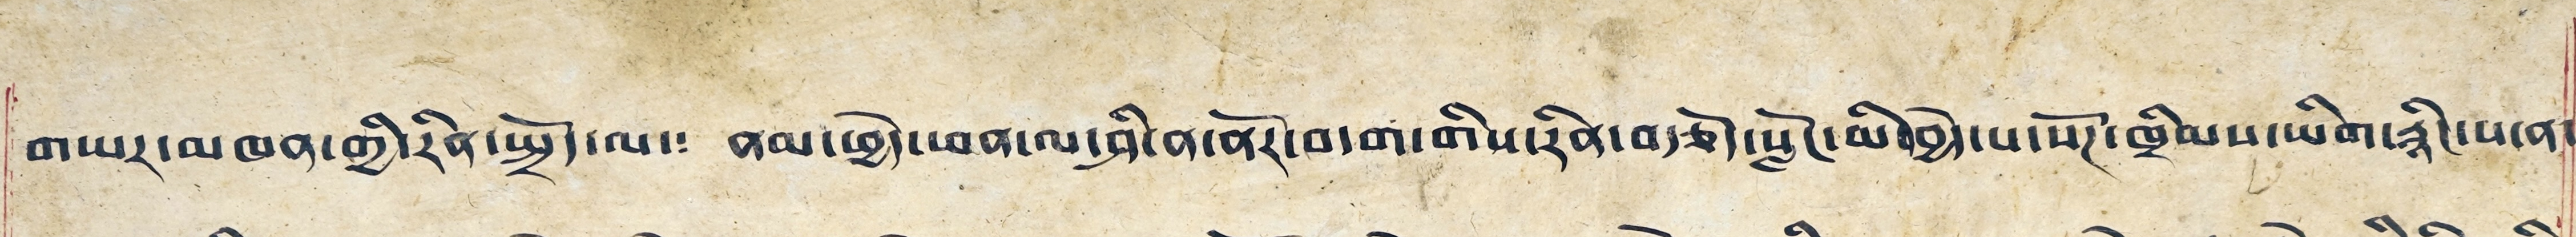གཡར་མཁན་གྱི་རིན་སྤྲོད་ལ་༴ ནམ་ཕྱེད་ཕན་ལ་ཤི་ན་ནོར་བདག་གིས་རིན་བརྩོད་སློང་མི་བྱེད་པ་སོཊ་ཁྲིམས་ཡིག་རྙིང་པ་ན་
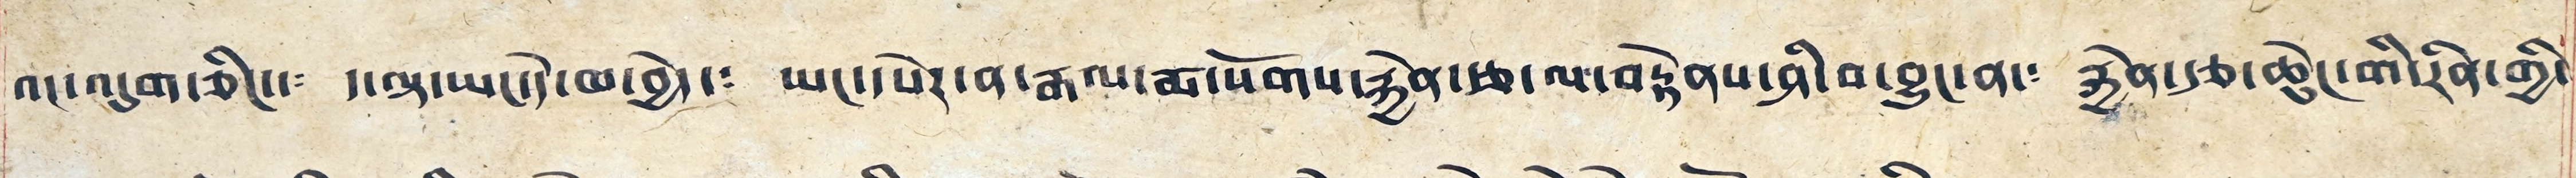འང་འདུག་ཅིང་༴ ད་ལྟ་ཡང་དེ་ཁ་བྱེད་༴ ཡང་དཔེར་ན་རྒལ་རྨ་སོགས་རྐྱེན་རྩ་ལ་བརྟེནས་ཤི་བ་བྱུང་ན་༴ རྐྱེན་རྩ་ཆེུང་གི་རིན་གྱི་
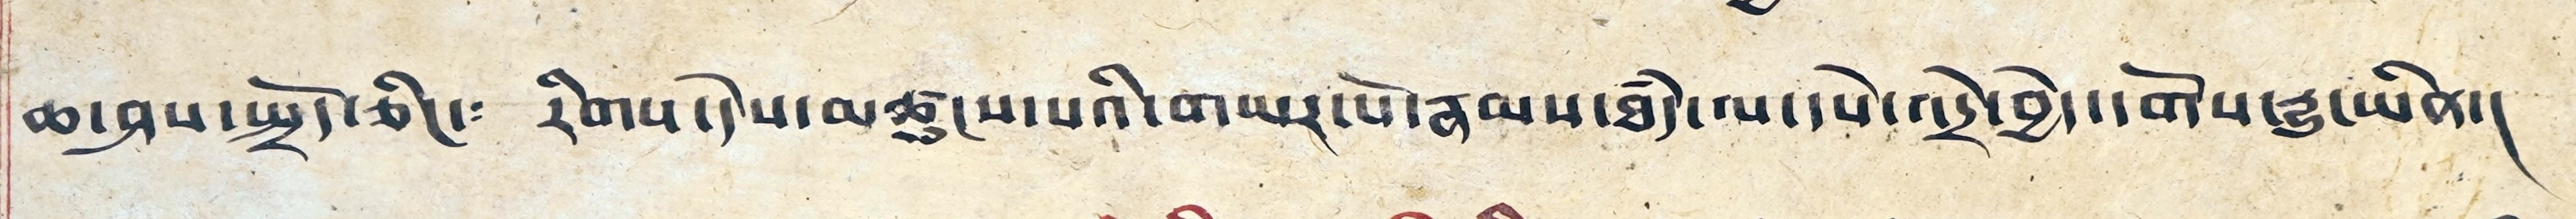ཆ་ཤས་སྤྲོད་ཅིང་༴ རིགས་དེས་མཚུངས་པའི་གཡར་པོ་རྣམས་ཐཾད་ལ་དཔེ་འདྲེ་བྱེད་དགོས་རྒྱུ་ཡིན།།
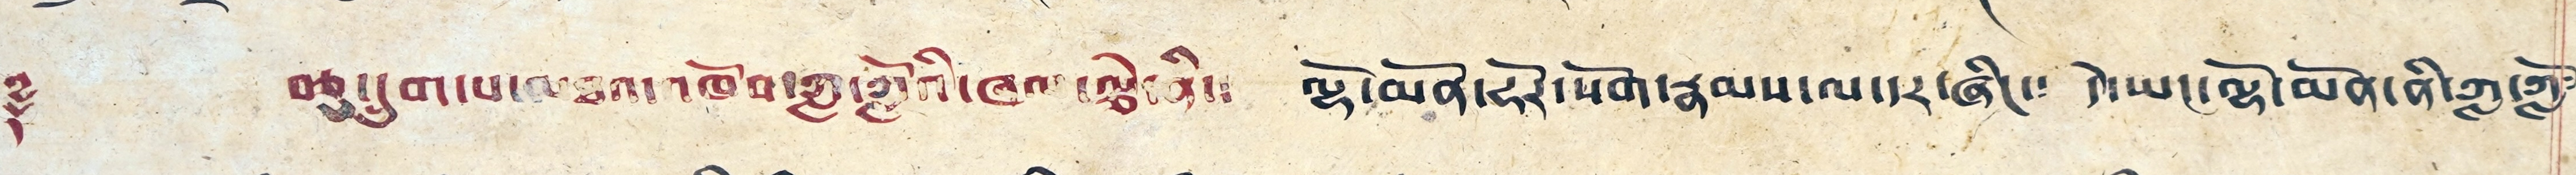༈ བཅུ་དྲུག་པ་མཐའ་འཁོབ་ཀླ་ཀློའི་ཞལ་ལྕེ་ནི་༴ ལྷོ་མོན་ཧོར་སོག་རྣམས་ལ་དར་ཞིང་༴ དེ་ཡང་ལྷོ་མོན་ནི་ཀླ་ཀློ༴
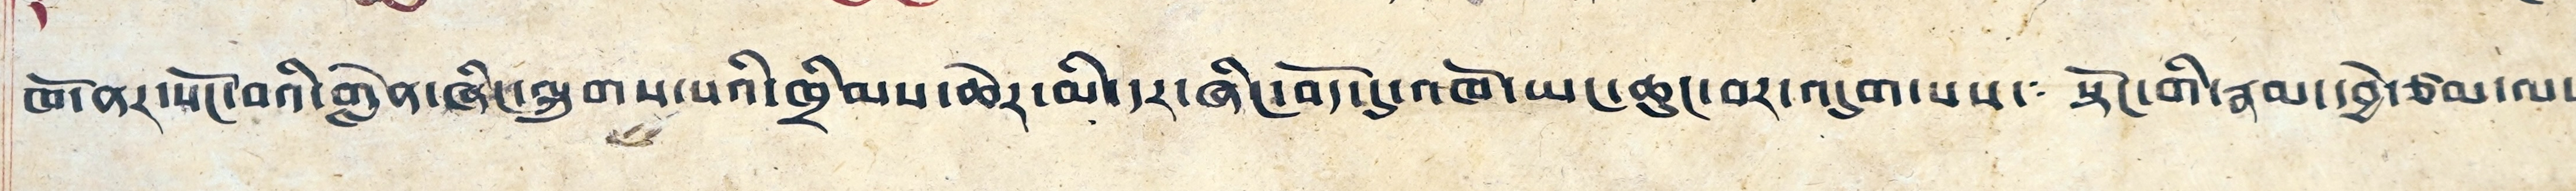ཁོ་ནར་སོང་བའི་གླེན་ཞིང་ལྐུགས་པའི་ཁྲིམས་ཆེར་མི་དར་ཞིང་བོད་དུ་འཁོ་ཡང་ཆུང་བར་འདུག་པས་༴ སྟོང་གི་རྣམ་དབྱེ་ཙམ་ལས་
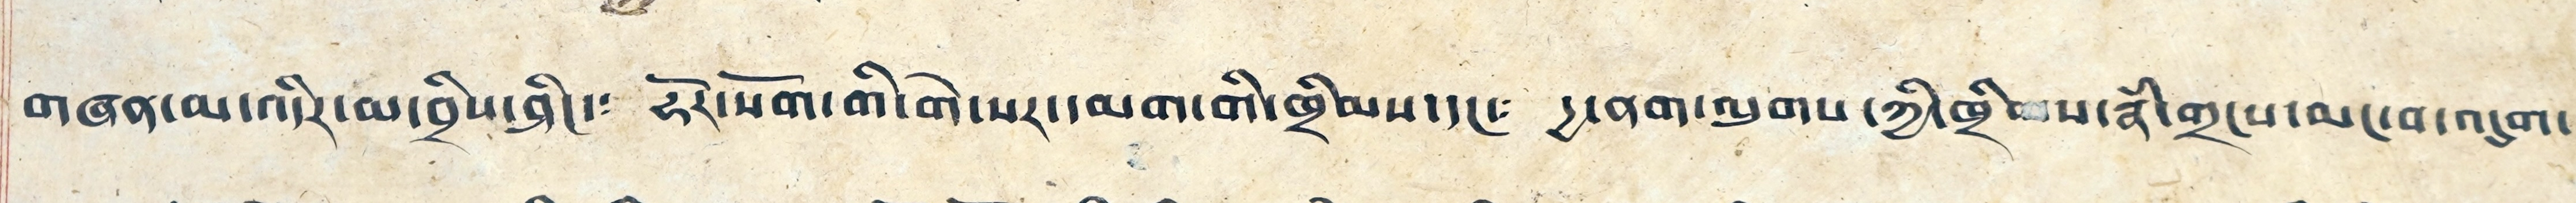གཞན་མ་འདིར་མ་བྲིས་ཤིང་༴ ཧོར་སོག་གི་གེ་སར་དམག་གི་ཁྲིམས་དང་༴ དྱ་ནག་ལུགས་ཀྱི་ཁྲིམས་རྣཾ་གྲངས་མང་བ་འདུག་
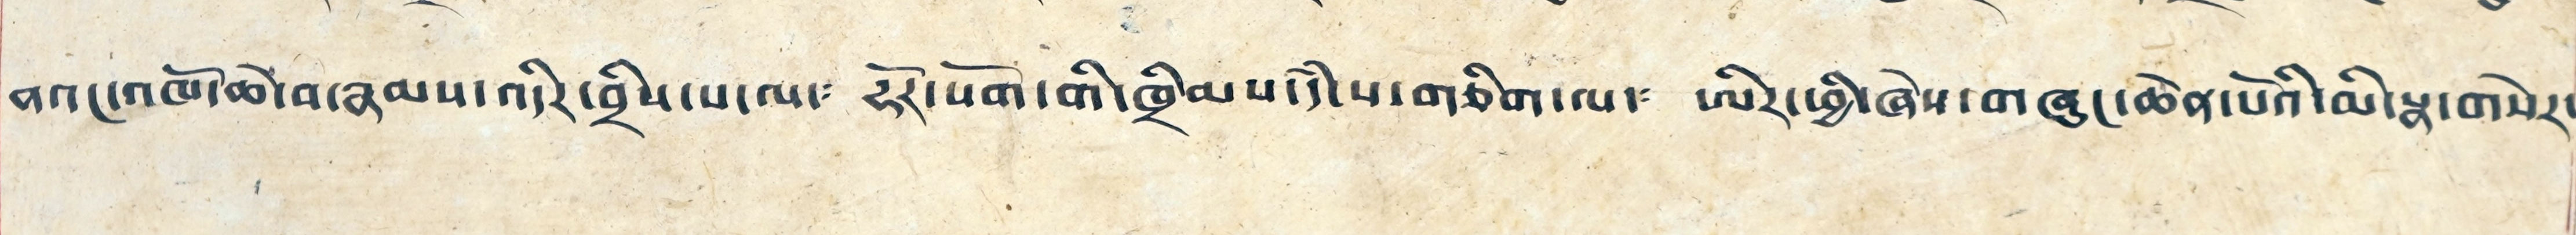ནའང་འཁོ་ཆེ་བ་རྣམས་འདིར་བྲིས་པ་ལ་༴ ཧོར་སོག་གི་ཁྲིམས་དཾ་པ་གཅིག་ལ་༴ ཨིར་ཕྱི་ཞེས་གཞང་ཆེན་པོའི་མི་སྣ་གསེར་
